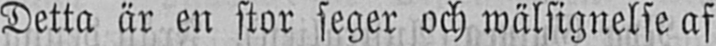Detta är en stor seger och wälsignelse af
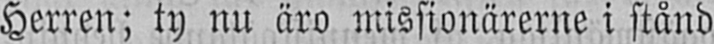Herren; ty nu äro missionärerne i stånd
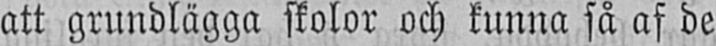att grundlägga skolor och kunna så af de
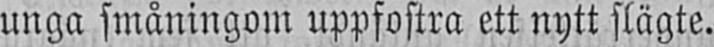unga småningom uppfostra ett nytt slägte.
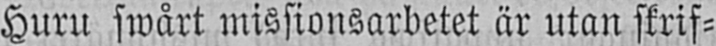Huru swårt missionsarbetet är utan skrif-
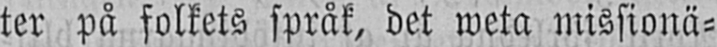ter på folkets språk, det weta missionä-
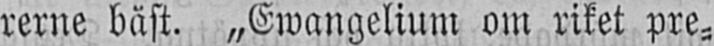rerne bäst. „Ewangelium om riket pre-
